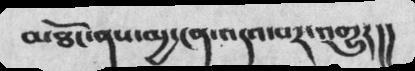མཐོང་ནས་མྱ་ངན་འདའ་བར་འགྱུར།།
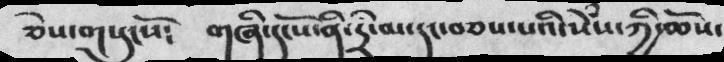ཅེས་གསུངསོ༴  གཞི་དངོས་ནི་དྲི་མ་དང་བཅས་པའི་སེཾས་ཀྱི་ཆོས་
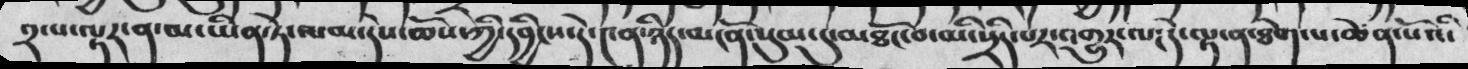༢་པ་ལྟར་ན་མ་ཡིན་ཏེ་ལམ་དེས་ཆོས་ཀྱི་དབྱིངས་དེ་༤ན་ཉིད་མངོན་སུམ་དུ་མཐོང་བ་མི་སྲིད་པར་འགྱུར་ལ༴དེ་ལྟ་ན་ཐེག་པ་ཆེན་པོའི་
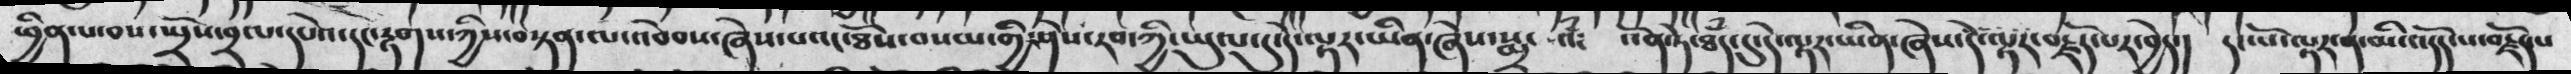ཕྱིན་པ་བས་སྤྲོས་བྲལ་དཔེའ་དང་རྟགས་ཀྱིས་བསྟན་ལ་འབེབས་ཞེས་པའང་ཐོས་བསམ་གྱི་ཤེས་རབ་ཀྱི་ཡུལ་དུ་དེ་ལྟར་ཡིན་ཞེས་སྨྲ་ འཾ༴ འོན་ཏེ་ཐཾད་དུ་དེ་ལྟར་ཡིན་ཞེས་དེ་ལྟར་བརྗོད་པར་བྱེད་། དང་པོ་ལྟར་ན་མི་འདོད་པ་བརྗོད་པ
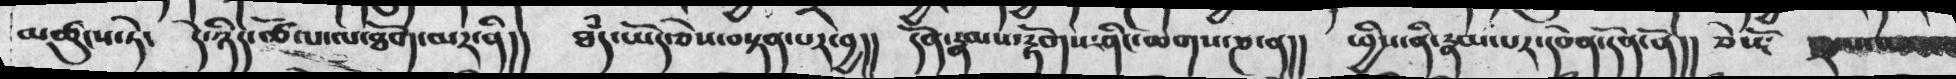མཚུངས་ཏེ་  དེ་ཉིད་ཚེལ་ལ་ཐོག་མར་ནི།།   ཐཾད་ཡོད་ཅེས་བསྟན་པར་བྱེད།།   དོན་རྣམས་པ་རྟོགས་ཤིང་ཆགས་ཎ་ན།།  ཕྱིས་ནི་རྣམ་པར་དབེན་དོན་ནོ།།  ཅེསོ༴
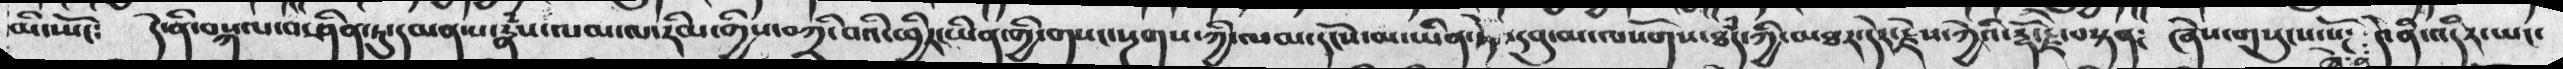མི་ཡོང༴  དེ་ནི་བསྐལ་བ་ཤིན་ཏུ་དམན་པ་རྣཾམ་ལམ་ལ་རིམ་གྱིས་བཀྲི་བའི་ཕྱིར་ཡིན་གྱི་གསང་སྔགས་ཀྱི་ལམ་དངོས་མ་ཡིན་ཏེ་དབུ་མ་ལསོགས་ཐཾད་ཀྱི་མཐར་དེར་རྗེས་ཀྱིའི་རྡོ་རྗེ་བསྟན༴   ཞེས་གསུངས་སོ༴  ཞེ་ན་དེ་ནི་འདིར་ཡང་
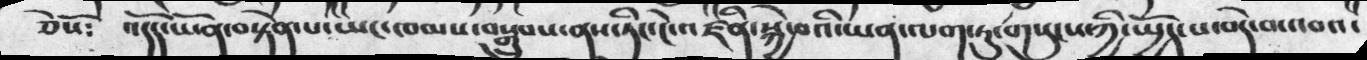ཅེསོ༴    འདོད་ཡོན་བསྟེན་པ་ཡང་ཁམས་བསྒྲུབས་ནས་ཏིང་ངེ་འཛིན་སྐྱེ་བའི་ཡན་ལག་ཏུ་གསུངས་ཀྱི་ཡྱོད་པ་བདེ་འབའ་
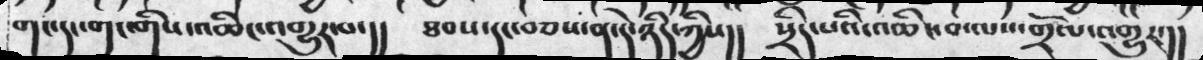གང་དང་གང་གིས་འཆིང་འགྱུར་བ་།། ཐབས་དང་བཅས་ན་དེ་ཉིད་ཀྱིས།། སྲིད་པའི་འཆིང་བ་ལས་གྲོལ་འགྱུར་།།
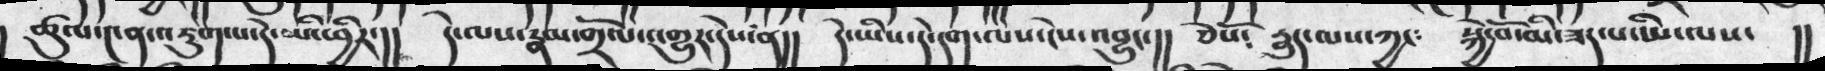ཚུལ་༤ན་འཇུག་པ་དེ་ཡི་ཕྱིར་།།  དེ་ལས་རྣམ་གྲོལ་འགྱུར་དེས་ན།།  དེ་ཡིས་དེ་དག་ལས་ངེས་འབྱུང་།། ཅེསོ༴ རྱུད་ལས་ཀྱང༴  སྐྱེ་བོ་མི་ཟད་པ་ཡི་ལས་ །།
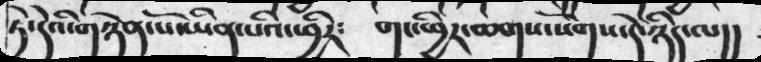ཏེ་དེའི་གཉེན་པོ་ཡིན་པའི་ཕྱིར༴  གང་ཕྱིར་ཆགས་སོགས་དེ་ཉིད་ལ།།
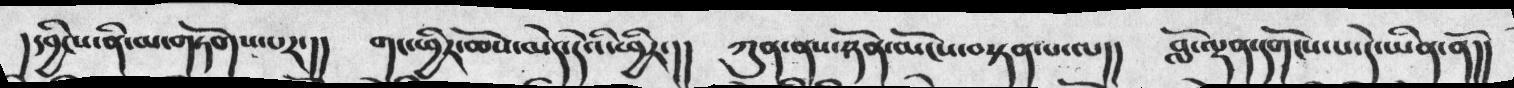།དབྱིངས་ནི་མ་གཏོགས་པར་།།  གང་ཕྱིར་ཆོས་མེད་དེའི་ཕྱིར་།།  ཀུན་ནས་ཉོན་མོངས་བསྟན་པ་ལ།།  བློ་ལྡན་དགོངས་པ་དེ་ཡིན་ནོ།།
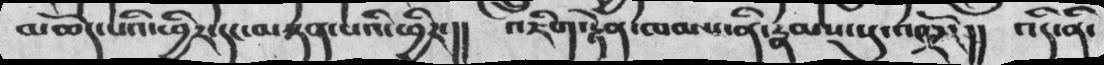མཆོད་པའི་ཕྱིར་དང་མསྟན་པའི་ཕྱིར་།།  འཇིག་རྟེན་ཁམས་ནི་རྣམས་སུ་འགྲོང།། འདི་ནི་
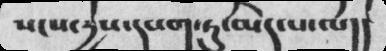སངས་དྱས་དཔག་ཏུ་མེད་པ་ལ།།
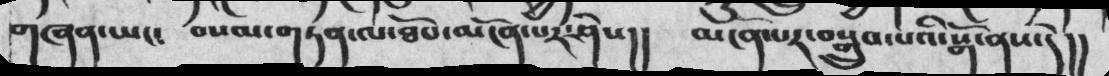གཞན་ཡང༴  བསམ་གཏན་ལ་ཐོབ་མངོན་པར་ཤེས།།  མངོན་པར་བསྒྲུབ་པའི་སྒོ་ནས་དེ།།
